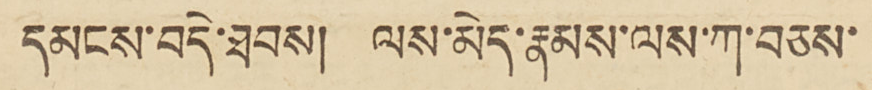དམངས་བདེ་ཐབས། ལས་མེད་རྣམས་ལས་ཀ་བཅས་
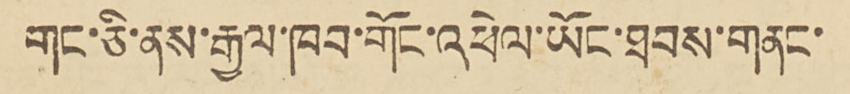གང་ཅི་ནས་རྒྱལ་ཁབ་གོང་འཕེལ་ཡོང་ཐབས་གནང་
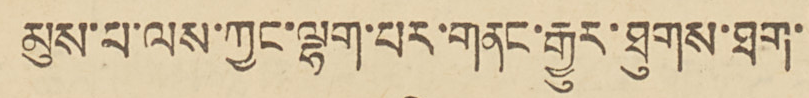མུས་པ་ལས་ཀྱང་ལྷག་པར་གནང་རྒྱུར་ཐུགས་ཐག་
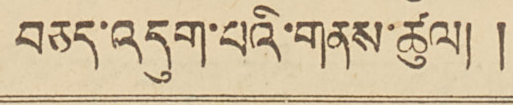བཅད་འདུག་པའི་གནས་ཚུལ།།
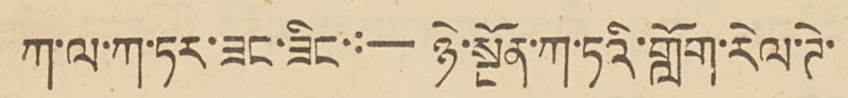ཀ་ལ་ལ་ཏར་ཟང་ཟིང་:— ཉེ་སྔོན་ཀ་ཏའི་གློག་རེལ་ཌེ་
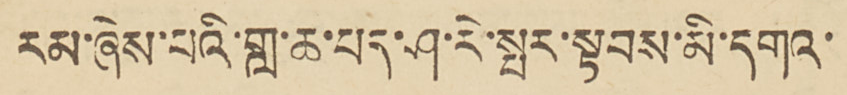རམ་ཞེས་པའི་གླ་ཆ་པད་ཤ་རེ་སྤར་སྟབས་མི་དགའ་
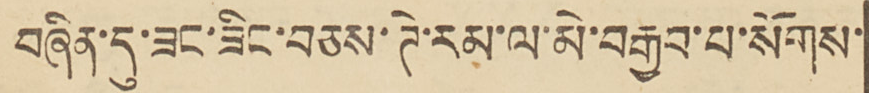བཞིན་དུ་ཟང་ཟིང་བཅས་ཊེ་རམ་ལ་མེ་བརྒྱབ་པ་སོགས་
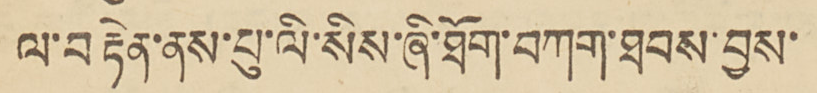ལ་བརྟེན་ནས་པུ་ལི་སིས་ཞི་ཐོག་བཀག་ཐབས་བྱས་
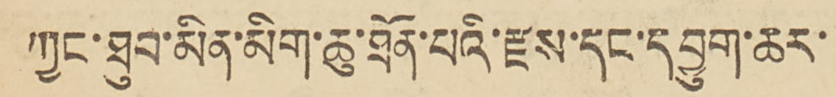ཀྱང་ཐུབ་མིན་མིག་ཆུ་ཐོན་པའི་རྫས་དང་དབྱུག་ཆར་
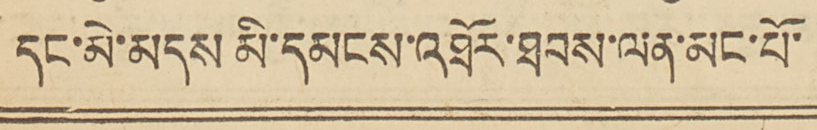དང་མེ་མདས་མི་དམངས་འཐོར་ཐབས་ལན་མང་པོ་
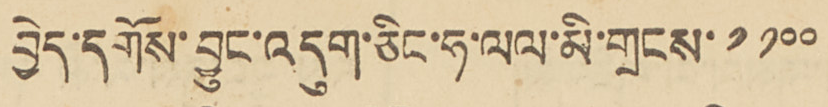བྱེད་དགོས་བྱུང་འདུག་ཅིང་ཧ་ལས་མི་གྲངས་༡༡༠༠
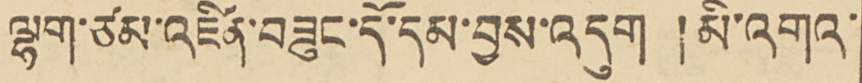ལྷག་ཙམ་འཛིན་བཟུང་དོ་དམ་བྱས་འདུག །མི་འགའ་
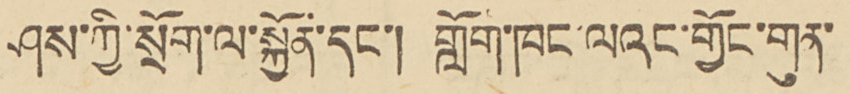ཤས་ཀྱི་སྲོག་ལ་སྐྱོན་དང་། གློག་ཁང་ལའང་གྱོང་གུན་
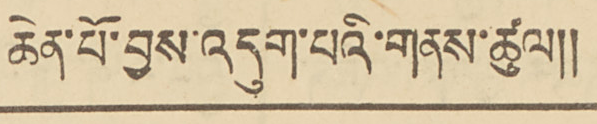ཆེན་པོ་བྱས་འདུག་པའི་གནས་ཚུལ།།
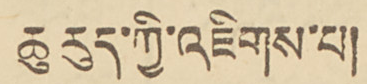ཆུ་རུད་ཀྱི་འཇིགས་པ།
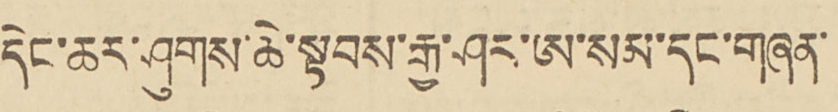དེང་ཆར་ཤུགས་ཆེ་སྟབས་རྒྱ་ཤར་ཨ་སམ་དང་གཞན་
